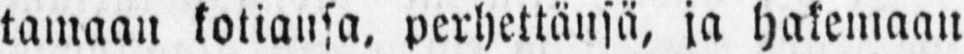tamaan kotiansa, perhettänsä, ja hakemaan
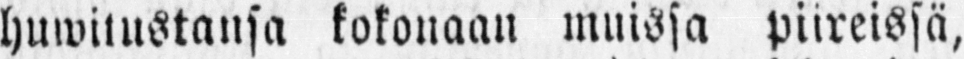huwitustansa kokonaan muissa piireissä,
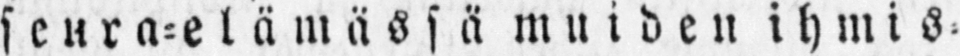seura-elämässä muiden ihmis-
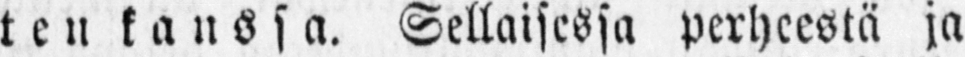ten kanssa. Sellaisessa perheestä ja
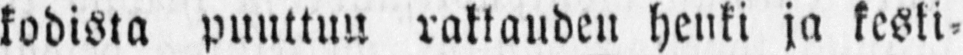kodista puuttuu rakkauden henki ja keski-
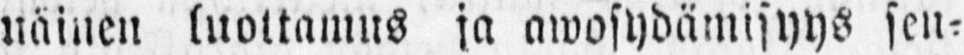nainen luottamus ja awosydämisyys sen-
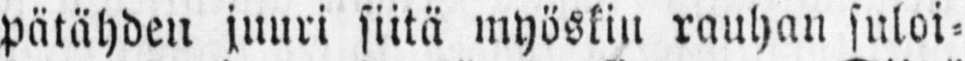pätähden juuri siitä myöskin rauhan suloi-
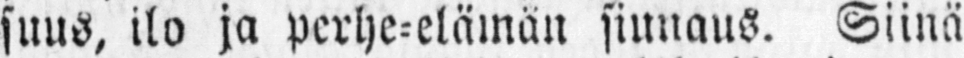suus, ilo ja perhe-elämän siunaus. Siinä
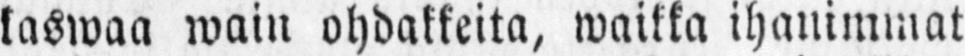kaswaa wain ohdakkeita, waikka ihanimmat
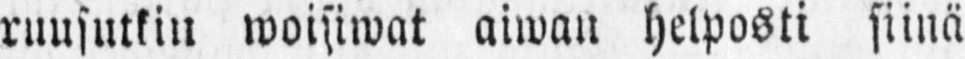ruusutkin woisiwat aiwan helposti siinä
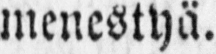menestyä.
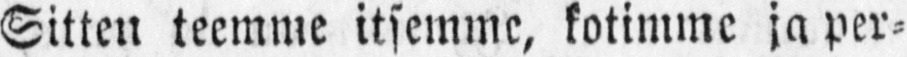Sitten teemme itsemme, kotimme ja per-
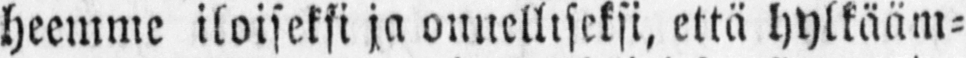heemme iloiseksi ja onnelliseksi, että hylkääm-
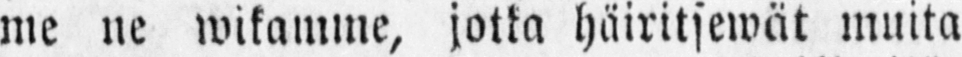me ne wikamme, jotta häiritsewät muita
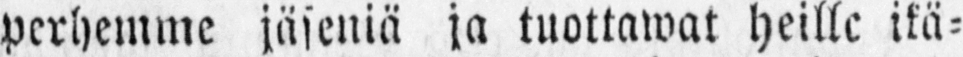perhemme jäseniä ja tuottawat heille ikä-
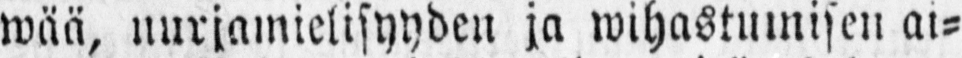wää, nurjamielisyyden ja wihastumisen ai-
